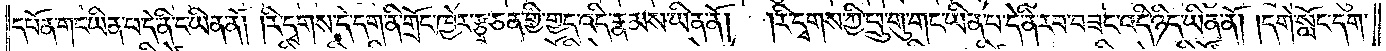དཔོན་གང་ཡིན་པ་དེ་ནི་ང་ཡིན་ནོ། །རི་དྭགས་དེ་དག་ནི་གྲོང་ཁྱེར་རྩྭ་ཅན་གྱི་གྱད་འདི་རྣམས་ཡིན་ནོ། །རི་དྭགས་ཀྱི་ཕྲུ་གུ་གང་ཡིན་པ་དེ་ནི་རབ་བཟང་འདི་ཉིད་ཡིན་ནོ། །དགེ་སློང་དག་
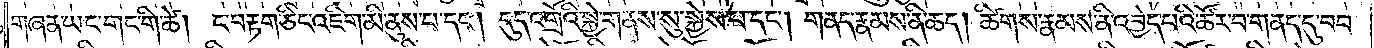གཞན་ཡང་གང་གི་ཚེ། ང་བརྟག་ཅིང་འཇིག་མི་ནུས་པ་དང༌། དུད་འགྲོའི་སྐྱེ་གནས་སུ་སྐྱེས་པ་དང༌། གནད་རྣམས་ནི་ཆད། ཚིགས་རྣམས་ནི་འབྱེད་པའི་ཚོར་བ་གནད་དུ་བབ་
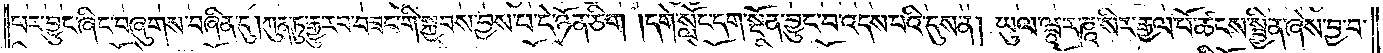པར་བྱུང་ཞིང་བཞུགས་བཞིན་དུ། ཀུན་ཏུ་རྒྱུ་རབ་བཟང་གི་སྐྱབས་བྱས་པ་དེ་ཉོན་ཅིག །དགེ་སློང་དག་སྔོན་བྱུང་བ་འདས་པའི་དུས་ན། ཡུལ་ཝཱ་ར་ཎཱ་སིར་རྒྱལ་པོ་ཚངས་སྦྱིན་ཞེས་བྱ་བ་
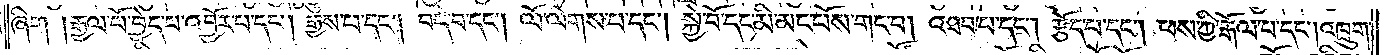ཞིག །རྒྱལ་པོ་བྱེད་པ་འབྱོར་པ་དང༌། རྒྱས་པ་དང༌། བདེ་བ་དང༌། ལོ་ལེགས་པ་དང༌། སྐྱེ་བོ་དང་མི་མང་པོས་གང་བ། འཐབ་པ་དང༌། རྩོད་པ་དང༌། ཕས་ཀྱི་རྒོལ་བ་དང༌། འཁྲུག་
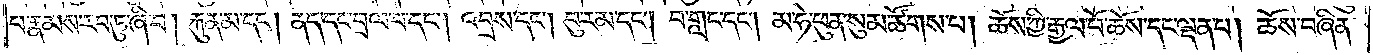པ་རྣམས་རབ་ཏུ་ཞི་བ། རྐུན་མ་དང༌། ནད་དང་བྲལ་བ་དང༌། འབྲས་དང༌། བུ་རམ་དང༌། བ་གླང་དང༌། མ་ཧེ་ཕུན་སུམ་ཚོགས་པ། ཆོས་ཀྱི་རྒྱལ་པོ་ཆོས་དང་ལྡན་པ། ཆོས་བཞིན་
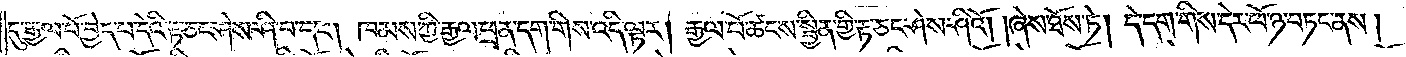དུ་རྒྱལ་པོ་བྱེད་པ་དེའི་རྟ་ཅང་ཤེས་ཤི་བ་དང༌། ཁམས་ཀྱི་རྒྱལ་ཕྲན་དག་གིས་འདི་ལྟར། རྒྱལ་པོ་ཚངས་སྦྱིན་གྱི་རྟ་ཅང་ཤེས་ཤིའོ། །ཞེས་ཐོས་ཏེ། དེ་དག་གིས་དེར་ཕོ་ཉ་བཏང་ནས།
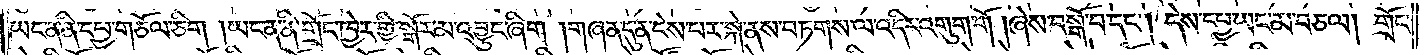ཡང་ན་ནི་དཔྱ་གཅོལ་ཅིག །ཡང་ན་ནི་གྲོང་ཁྱེར་གྱི་སྒོར་མ་འབྱུང་ཞིག །གཞན་དུ་ན་ངེས་པར་སྐེ་ནས་བཏགས་ལ་འདིར་འགུག་གོ །ཞེས་བསྒོ་བ་དང༌། དེས་དཔྱ་ཡང་མ་བཅལ། གྲོང་
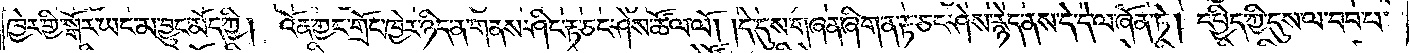ཁྱེར་གྱི་སྒོར་ཡང་མ་བྱུང་མོད་ཀྱི། འོན་ཀྱང་གྲོང་ཁྱེར་ཉིད་ན་གནས་ཤིང་རྟ་ཅང་ཤེས་ཚོལ་ལོ། །དེ་དུས་གཞན་ཞིག་ན་རྟ་ཅང་ཤེས་རྙེད་ནས་དེ་དེ་ལ་ཞོན་ཏེ། དཔྱིད་ཀྱི་དུས་ལ་བབ་པ་
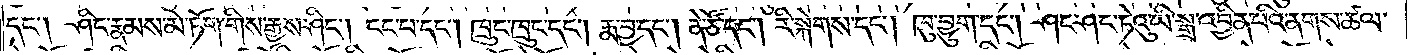དང༌། ཤིང་རྣམས་མེ་ཏོག་གིས་རྒྱས་ཤིང༌། ངང་པ་དང༌། ཁྲུང་ཁྲུང་དང༌། རྨ་བྱ་དང༌། ནེ་ཙོ་དང༌། རི་སྐེགས་དང༌། ཁུ་བྱུག་དང༌། ཤང་ཤང་ཏེའུ་ཡི་སྒྲ་འབྱིན་པའི་ནགས་ཚལ་
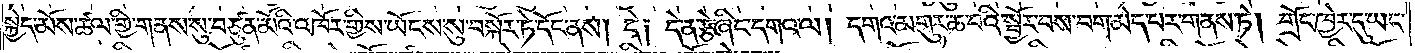སྐྱེད་མོས་ཚལ་གྱི་གནས་སུ་བཙུན་མོའི་འཁོར་གྱིས་ཡོངས་སུ་བསྐོར་ཏེ་དོང་ནས། དེ༑ དེ་ན་རྩེ་ཞིང་དགའ་ལ། དགའ་མགུར་ཆ་བའི་སྦྱོར་བས་བག་མེད་པར་གནས་ཏེ། གྲོང་ཁྱེར་དུ་ཡང་
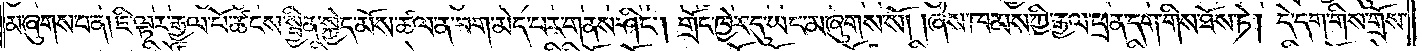མ་ཞུགས་པ་ན། ཇི་ལྟར་རྒྱལ་པོ་ཚངས་སྦྱིན་སྐྱེད་མོས་ཚལ་ན་བག་མེད་པར་གནས་ཤིང༌། གྲོང་ཁྱེར་དུ་ཡང་མ་བཞུགས་སོ། །ཞེས་ཁམས་ཀྱི་རྒྱལ་ཕྲན་དག་གིས་ཐོས་ཏེ། དེ་དག་གིས་གྲོས་
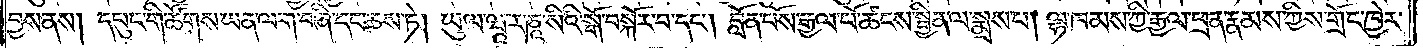བྱས་ནས། དཔུང་གི་ཚོགས་ཡན་ལག་བཞི་དང་ཆས་ཏེ། ཡུལ་ཝཱ་ར་ཎཱ་སིའི་སྒོ་བསྐོར་བ་དང༌། བློན་པོས་རྒྱལ་པོ་ཚངས་སྦྱིན་ལ་སྨྲས་པ། ལྷ་ཁམས་ཀྱི་རྒྱལ་ཕྲན་རྣམས་ཀྱིས་གྲོང་ཁྱེར་
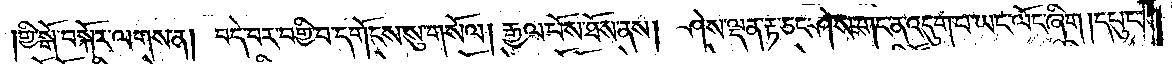གྱི་སྒོ་བསྐོར་ལགས་ན། བདེ་བར་བགྱི་བ་དགོངས་སུ་གསོལ། རྒྱལ་པོས་ཐོས་ནས། ཤེས་ལྡན་རྟ་ཅང་ཤེས་གང་ན་འདུག་པ་ཡང་ལོང་ཞིག །དཔུང་
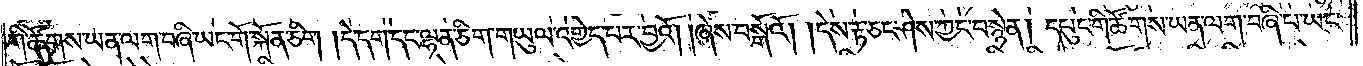གི་ཚོགས་ཡན་ལག་བཞི་ཡང་གོ་སྐོན་ཅིག །དེ་དག་དང་ལྷན་ཅིག་གཡུལ་འགྱེད་པར་བྱའོ། །ཞེས་བསྒོའོ། །དེས་རྟ་ཅང་ཤེས་ཀྱང་བསྙེན། དཔུང་གི་ཚོགས་ཡན་ལག་བཞི་པ་ཡང་
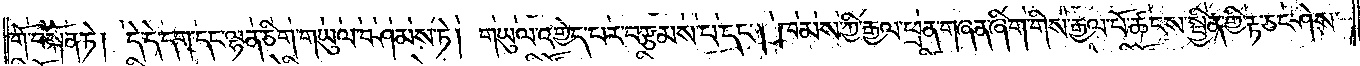གོ་བསྐོན་ཏེ། དེ་དེ་དག་དང་ལྷན་ཅིག་གཡུལ་བཤམས་ཏེ། གཡུལ་འགྱེད་པར་བརྩམས་པ་དང༌། ཁམས་ཀྱི་རྒྱལ་ཕྲན་གཞན་ཞིག་གིས་རྒྱལ་པོ་ཚངས་སྦྱིན་གྱི་རྟ་ཅང་ཤེས་
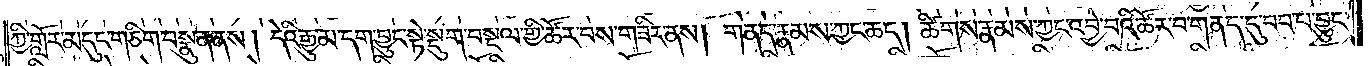ཀྱི་གློར་མདུང་གཅིག་བསྣུན་ནས། དེའི་རྒྱུ་མ་དག་བྱུང་སྟེ་སྡུག་བསྔལ་གྱི་ཚོར་བས་གཟིར་ནས། གནད་རྣམས་ཀྱང་ཆད། ཚིགས་རྣམས་ཀྱང་འབྱེ་བའི་ཚོར་བ་གནད་དུ་བབ་པ་བྱུང་
